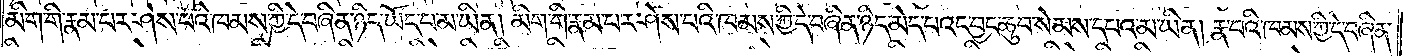མིག་གི་རྣམ་པར་ཤེས་པའི་ཁམས་ཀྱི་དེ་བཞིན་ཉིད་ཡོད་པ་མ་ཡིན། མིག་གི་རྣམ་པར་ཤེས་པའི་ཁམས་ཀྱི་དེ་བཞིན་ཉིད་མེད་པའང་བྱང་ཆུབ་སེམས་དཔའ་མ་ཡིན། རྣ་བའི་ཁམས་ཀྱི་དེ་བཞིན་
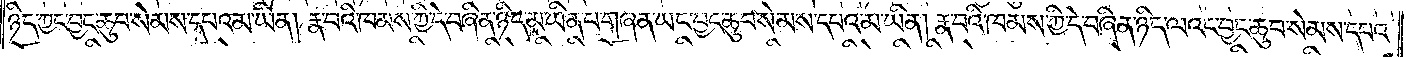ཉིད་ཀྱང་བྱང་ཆུབ་སེམས་དཔའ་མ་ཡིན། རྣ་བའི་ཁམས་ཀྱི་དེ་བཞིན་ཉིད་མ་ཡིན་པ་གཞན་ཡང་བྱང་ཆུབ་སེམས་དཔའ་མ་ཡིན། རྣ་བའི་ཁམས་ཀྱི་དེ་བཞིན་ཉིད་ལའང་བྱང་ཆུབ་སེམས་དཔའ་
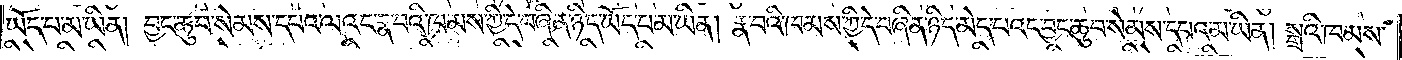ཡོད་པ་མ་ཡིན། བྱང་ཆུབ་སེམས་དཔའ་ལའང་རྣ་བའི་ཁམས་ཀྱི་དེ་བཞིན་ཉིད་ཡོད་པ་མ་ཡིན། རྣ་བའི་ཁམས་ཀྱི་དེ་བཞིན་ཉིད་མེད་པའང་བྱང་ཆུབ་སེམས་དཔའ་མ་ཡིན། སྒྲའི་ཁམས་
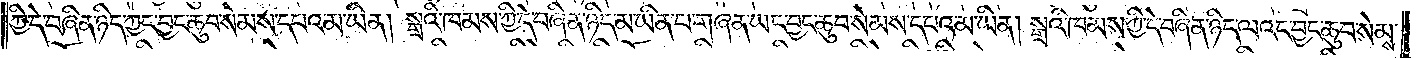ཀྱི་དེ་བཞིན་ཉིད་ཀྱང་བྱང་ཆུབ་སེམས་དཔའ་མ་ཡིན། སྒྲའི་ཁམས་ཀྱི་དེ་བཞིན་ཉིད་མ་ཡིན་པ་གཞན་ཡང་བྱང་ཆུབ་སེམས་དཔའ་མ་ཡིན། སྒྲའི་ཁམས་ཀྱི་དེ་བཞིན་ཉིད་ལའང་བྱང་ཆུབ་སེམས་
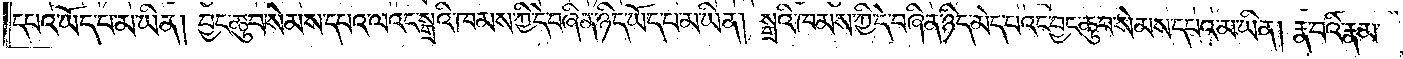དཔའ་ཡོད་པ་མ་ཡིན། བྱང་ཆུབ་སེམས་དཔའ་ལའང་སྒྲའི་ཁམས་ཀྱི་དེ་བཞིན་ཉིད་ཡོད་པ་མ་ཡིན། སྒྲའི་ཁམས་ཀྱི་དེ་བཞིན་ཉིད་མེད་པའང་བྱང་ཆུབ་སེམས་དཔའ་མ་ཡིན། རྣ་བའི་རྣམ་
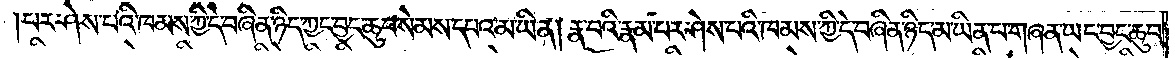པར་ཤེས་པའི་ཁམས་ཀྱི་དེ་བཞིན་ཉིད་ཀྱང་བྱང་ཆུབ་སེམས་དཔའ་མ་ཡིན། རྣ་བའི་རྣམ་པར་ཤེས་པའི་ཁམས་ཀྱི་དེ་བཞིན་ཉིད་མ་ཡིན་པ་གཞན་ཡང་བྱང་ཆུབ་
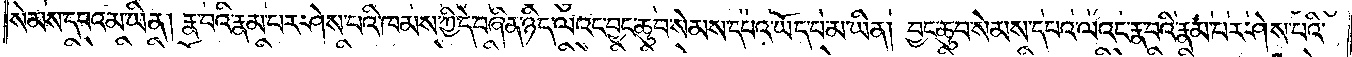སེམས་དཔའ་མ་ཡིན། རྣ་བའི་རྣམ་པར་ཤེས་པའི་ཁམས་ཀྱི་དེ་བཞིན་ཉིད་ལའང་བྱང་ཆུབ་སེམས་དཔའ་ཡོད་པ་མ་ཡིན། བྱང་ཆུབ་སེམས་དཔའ་ལའང་རྣ་བའི་རྣམ་པར་ཤེས་པའི་
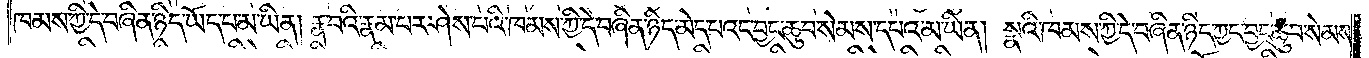ཁམས་ཀྱི་དེ་བཞིན་ཉིད་ཡོད་པ་མ་ཡིན། རྣ་བའི་རྣམ་པར་ཤེས་པའི་ཁམས་ཀྱི་དེ་བཞིན་ཉིད་མེད་པའང་བྱང་ཆུབ་སེམས་དཔའ་མ་ཡིན། སྣའི་ཁམས་ཀྱི་དེ་བཞིན་ཉིད་ཀྱང་བྱང་ཆུབ་སེམས་
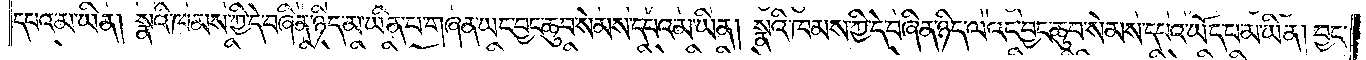དཔའ་མ་ཡིན། སྣའི་ཁམས་ཀྱི་དེ་བཞིན་ཉིད་མ་ཡིན་པ་གཞན་ཡང་བྱང་ཆུབ་སེམས་དཔའ་མ་ཡིན། སྣའི་ཁམས་ཀྱི་དེ་བཞིན་ཉིད་ལའང་བྱང་ཆུབ་སེམས་དཔའ་ཡོད་པ་མ་ཡིན། བྱང་
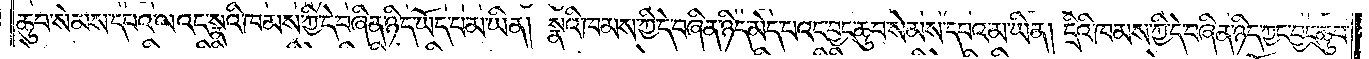ཆུབ་སེམས་དཔའ་ལའང་སྣའི་ཁམས་ཀྱི་དེ་བཞིན་ཉིད་ཡོད་པ་མ་ཡིན། སྣའི་ཁམས་ཀྱི་དེ་བཞིན་ཉིད་མེད་པའང་བྱང་ཆུབ་སེམས་དཔའ་མ་ཡིན། དྲིའི་ཁམས་ཀྱི་དེ་བཞིན་ཉིད་ཀྱང་བྱང་ཆུབ་
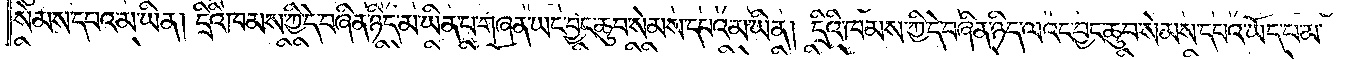སེམས་དཔའ་མ་ཡིན། དྲིའི་ཁམས་ཀྱི་དེ་བཞིན་ཉིད་མ་ཡིན་པ་གཞན་ཡང་བྱང་ཆུབ་སེམས་དཔའ་མ་ཡིན། དྲིའི་ཁམས་ཀྱི་དེ་བཞིན་ཉིད་ལའང་བྱང་ཆུབ་སེམས་དཔའ་ཡོད་པ་མ་
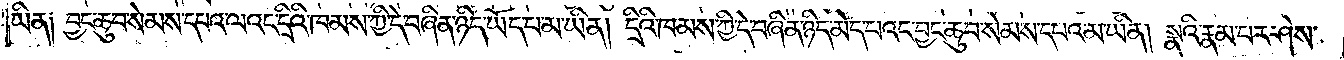ཡིན༑ བྱང་ཆུབ་སེམས་དཔའ་ལའང་དྲིའི་ཁམས་ཀྱི་དེ་བཞིན་ཉིད་ཡོད་པ་མ་ཡིན། དྲིའི་ཁམས་ཀྱི་དེ་བཞིན་ཉིད་མེད་པའང་བྱང་ཆུབ་སེམས་དཔའ་མ་ཡིན། སྣའི་རྣམ་པར་ཤེས་
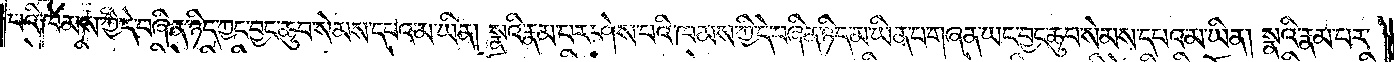པའི་ཁམས་ཀྱི་དེ་བཞིན་ཉིད་ཀྱང་བྱང་ཆུབ་སེམས་དཔའ་མ་ཡིན། སྣའི་རྣམ་པར་ཤེས་པའི་ཁམས་ཀྱི་དེ་བཞིན་ཉིད་མ་ཡིན་པ་གཞན་ཡང་བྱང་ཆུབ་སེམས་དཔའ་མ་ཡིན། སྣའི་རྣམ་པར་
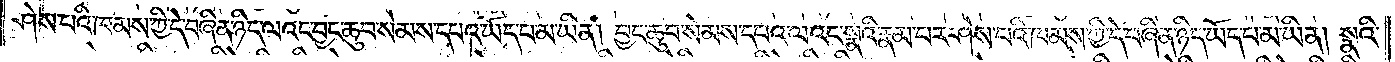ཤེས་པའི་ཁམས་ཀྱི་དེ་བཞིན་ཉིད་ལའང་བྱང་ཆུབ་སེམས་དཔའ་ཡོད་པ་མ་ཡིན། བྱང་ཆུབ་སེམས་དཔའ་ལའང་སྣའི་རྣམ་པར་ཤེས་པའི་ཁམས་ཀྱི་དེ་བཞིན་ཉིད་ཡོད་པ་མ་ཡིན། སྣའི་
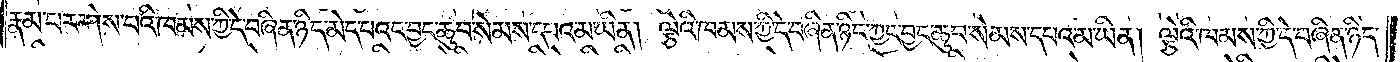རྣམ་པར་ཤེས་པའི་ཁམས་ཀྱི་དེ་བཞིན་ཉིད་མེད་པའང་བྱང་ཆུབ་སེམས་དཔའ་མ་ཡིན། ལྕེའི་ཁམས་ཀྱི་དེ་བཞིན་ཉིད་ཀྱང་བྱང་ཆུབ་སེམས་དཔའ་མ་ཡིན། ལྕེའི་ཁམས་ཀྱི་དེ་བཞིན་ཉིད་
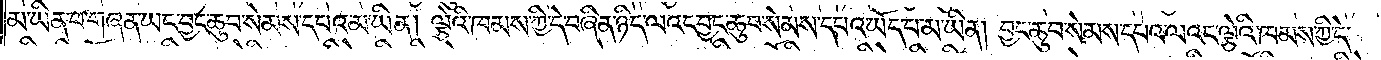མ་ཡིན་པ་གཞན་ཡང་བྱང་ཆུབ་སེམས་དཔའ་མ་ཡིན། ལྕེའི་ཁམས་ཀྱི་དེ་བཞིན་ཉིད་ལའང་བྱང་ཆུབ་སེམས་དཔའ་ཡོད་པ་མ་ཡིན། བྱང་ཆུབ་སེམས་དཔའ་ལའང་ལྕེའི་ཁམས་ཀྱི་དེ་
